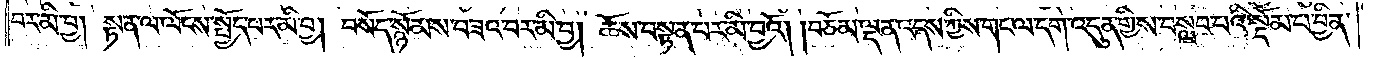བར་མི་བྱ། སྟན་ལ་ལོངས་སྤྱོད་པར་མི་བྱ། བསོད་སྙོམས་བཟའ་བར་མི་བྱ། ཆོས་བསྟན་པར་མི་བྱའོ། །བཅོམ་ལྡན་འདས་ཀྱིས་གང་ལ་དགེ་འདུན་གྱིས་བསླབ་པའི་སྡོམ་པ་བྱིན་
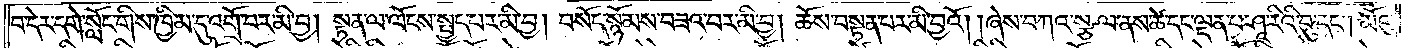པ་དེར་དགེ་སློང་གིས་ཁྱིམ་དུ་འགྲོ་བར་མི་བྱ། སྟན་ལ་ལོངས་སྤྱད་པར་མི་བྱ། བསོད་སྙོམས་བཟའ་བར་མི་བྱ། ཆོས་བསྟན་པར་མི་བྱའོ། །ཞེས་བཀའ་སྩལ་ནས་ཚེ་དང་ལྡན་པ་ཤཱ་རིའི་བུ་དང༌། མོའུ་
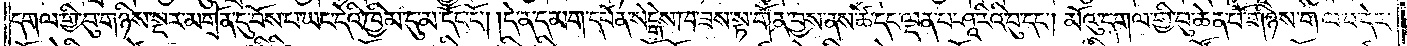དགལ་གྱི་བུ་གཉིས་སྔར་མགྲོན་དུ་བོས་པ་ཡང་དེའི་ཁྱིམ་དུ་མ་དོང་ངོ༌། །དེ་ན་དམག་དཔོན་སེངྒེས་ཁ་ཟས་སྟ་གོན་བྱས་ནས་ཚེ་དང་ལྡན་པ་ཤཱ་རིའི་བུ་དང༌། མོའུ་དགལ་གྱི་བུ་ཆེན་པོ་གཉིས་ག་ལ་བ་དེར་
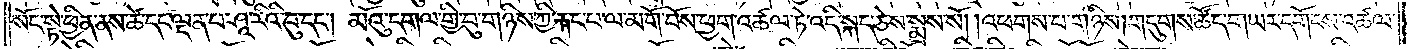སོང་སྟེ་ཕྱིན་ནས་ཚེ་དང་ལྡན་པ་ཤཱ་རིའི་བུ་དང༌། མོའུ་དགལ་གྱི་བུ་གཉིས་ཀྱི་རྐང་པ་ལ་མགོ་བོས་ཕྱག་འཚལ་ཏེ་འདི་སྐད་ཅེས་སྨྲས་སོ། །འཕགས་པ་གཉིས།གདུགས་ཚོད་གཡར་དགོངས་འཚལ་
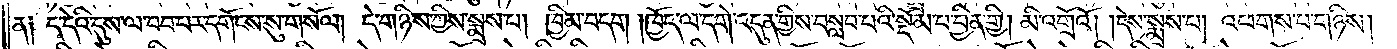ན༑ ད་དེའི་དུས་ལ་བབ་པར་དགོངས་སུ་གསོལ། དེ་གཉིས་ཀྱིས་སྨྲས་པ། ཁྱིམ་བདག །ཁྱོད་ལ་དགེ་འདུན་གྱིས་བསླབ་པའི་སྡོམ་པ་བྱིན་གྱི། མི་འགྲོའོ། །དེས་སྨྲས་པ། འཕགས་པ་གཉིས།
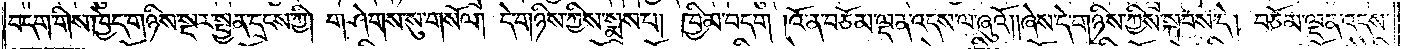བདག་གིས་ཁྱེད་གཉིས་སྔར་སྤྱན་དྲངས་ཀྱི། གཤེགས་སུ་གསོལ། དེ་གཉིས་ཀྱིས་སྨྲས་པ། ཁྱིམ་བདག །འོ་ན་བཅོམ་ལྡན་འདས་ལ་ཞུའོ། །ཞེས་དེ་གཉིས་ཀྱིས་སྐབས་དེ། བཅོམ་ལྡན་འདས་
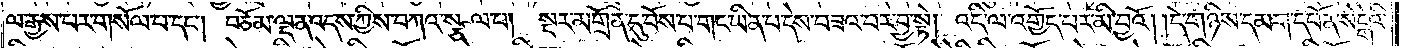ལ་རྒྱས་པར་གསོལ་བ་དང༌། བཅོམ་ལྡན་འདས་ཀྱིས་བཀའ་སྩལ་པ། སྔར་མགྲོན་དུ་བོས་པ་གང་ཡིན་པ་དེས་བཟའ་བར་བྱ་སྟེ། འདི་ལ་འགྱོད་པར་མི་བྱའོ། །དེ་གཉིས་དམག་དཔོན་སེངྒེའི་
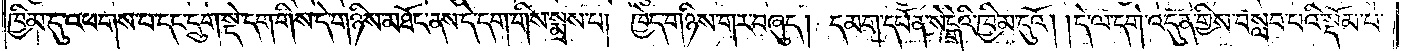ཁྱིམ་དུ་འཕགས་པ་དང་དྲུག་སྡེ་དག་གིས་དེ་གཉིས་མཐོང་ནས་དེ་དག་གིས་སྨྲས་པ། ཁྱེད་གཉིས་གར་བཞུད། དམག་དཔོན་སེངྒེའི་ཁྱིམ་དུའོ། །དེ་ལ་དགེ་འདུན་གྱིས་བསླབ་པའི་སྡོམ་པ་
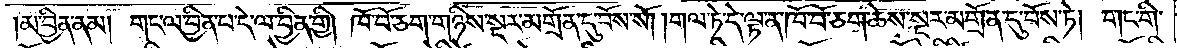མ་བྱིན་ནམ། གང་ལ་བྱིན་པ་དེ་ལ་བྱིན་གྱི། ཁོ་བོ་ཅག་གཉིས་སྔར་མགྲོན་དུ་བོས་སོ། །གལ་ཏེ་དེ་ལྟ་ན་ཁོ་བོ་ཅག་ཆེས་སྔར་མགྲོན་དུ་བོས་ཏེ། གང་གི་
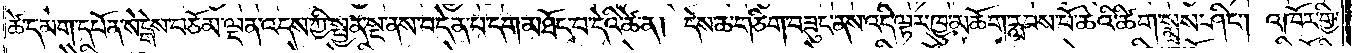ཚེ་དམག་དཔོན་སེངྒེའི་བཅོམ་ལྡན་འདས་ཀྱི་སྤྱན་སྔ་ནས་བདེན་པ་དག་མཐོང་བ་དེའི་ཚེ་ན། དེས་ཆ་གཅིག་བཟུང་ནས་འདི་ལྟར་ཁྱུ་མཆོག་རླབས་པོ་ཆེའི་ཚིག་སྨྲས་ཤིང༌། འཁོར་གྱི་
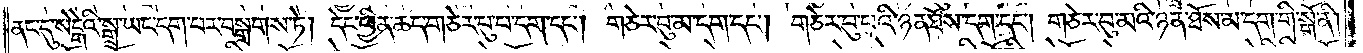ནང་དུ་སེངྒེའི་སྒྲ་ཡང་དག་པར་བསྒྲགས་ཏེ། དེང་ཕྱིན་ཆད་གཅེར་པུ་པ་དག་དང༌། གཅེར་བུ་མ་དག་དང༌། གཅེར་བུ་པའི་ཉན་ཐོས་དག་དང༌། གཅེར་བུ་མའི་ཉན་ཐོས་མ་དག་གི་སྒོ་ནི།
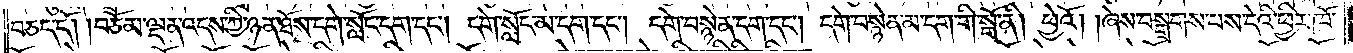བཅད་དོ། །བཅོམ་ལྡན་འདས་ཀྱི་ཉན་ཐོས་དགེ་སློང་དག་དང༌། དགེ་སློང་མ་དག་དང༌། དགེ་བསྙེན་དག་དང༌། དགེ་བསྙེན་མ་དག་གི་སྒོ་ནི། ཕྱེའོ། །ཞེས་བསྒྲགས་པས་དེའི་ཕྱིར་ཁོ་
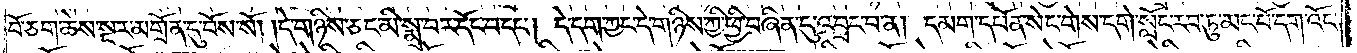པོ་ཅག་ཆེས་སྔར་མགྲོན་དུ་བོས་སོ། །དེ་གཉིས་ཅང་མི་སྨྲ་བར་དོང་བ་དང༌། དེ་དག་ཀྱང་དེ་གཉིས་ཀྱི་ཕྱི་བཞིན་དུ་འབྲང་བ་ན། དམག་དཔོན་སེང་གེས་དགེ་སློང་རབ་ཏུ་མང་པོ་དག་འོང་
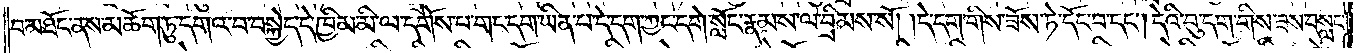བ་མཐོང་ནས་མཆོག་ཏུ་དགའ་བ་བསྐྱེད་དེ་ཁྱིམ་མི་ལ་དགོས་པ་གང་དག་ཡིན་པ་དེ་དག་ཀྱང་དགེ་སློང་རྣམས་ལ་བྲིམས་སོ། །དེ་དག་གིས་ཟོས་ཏེ་དོང་བ་དང༌། དེའི་བུ་དག་གིས་ཟས་བསླང་
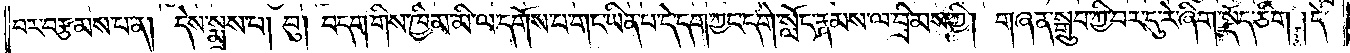བར་བརྩམས་པ་ན། དེས་སྨྲས་པ། བུ། བདག་གིས་ཁྱིམ་མི་ལ་དགོས་པ་གང་ཡིན་པ་དེ་དག་ཀྱང་དགེ་སློང་རྣམས་ལ་བྲིམས་ཀྱི། གཞན་སྒྲུབ་ཀྱི་བར་དུ་རེ་ཞིག་སྡོད་ཅིག །དེ་
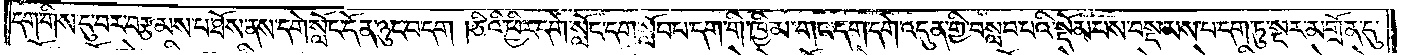དག་གིས་དུ་བར་བརྩམས་པ་ཐོས་ནས་དགེ་སློང་དོན་ཉུང་བ་དག །ཅིའི་ཕྱིར་དགེ་སློང་དག་སློབ་པ་དག་གི་ཁྱིམ་གང་དག་དགེ་འདུན་གྱི་བསླབ་པའི་སྡོམ་པས་བསྡམས་པ་དག་ཏུ་སྔར་མགྲོན་དུ་
